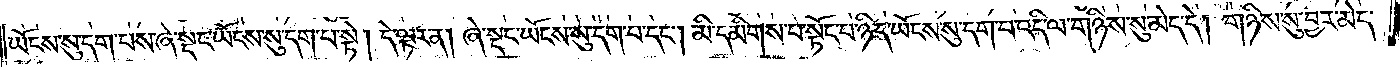ཡོངས་སུ་དག་པས་ཞེ་སྡང་ཡོངས་སུ་དག་པ་སྟེ། དེ་ལྟར་ན། ཞེ་སྡང་ཡོངས་སུ་དག་པ་དང༌། མི་དམིགས་པ་སྟོང་པ་ཉིད་ཡོངས་སུ་དག་པ་འདི་ལ་གཉིས་སུ་མེད་དེ། གཉིས་སུ་བྱར་མེད་
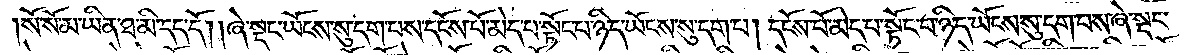སོ་སོ་མ་ཡིན་ཐ་མི་དད་དོ། །ཞེ་སྡང་ཡོངས་སུ་དག་པས་དངོས་པོ་མེད་པ་སྟོང་པ་ཉིད་ཡོངས་སུ་དག་པ། དངོས་པོ་མེད་པ་སྟོང་པ་ཉིད་ཡོངས་སུ་དག་པས་ཞེ་སྡང་
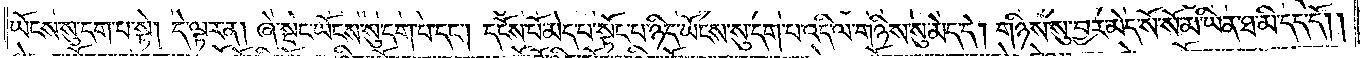ཡོངས་སུ་དག་པ་སྟེ། དེ་ལྟར་ན། ཞེ་སྡང་ཡོངས་སུ་དག་པ་དང༌། དངོས་པོ་མེད་པ་སྟོང་པ་ཉིད་ཡོངས་སུ་དག་པ་འདི་ལ་གཉིས་སུ་མེད་དེ། གཉིས་སུ་བྱར་མེད་སོ་སོ་མ་ཡིན་ཐ་མི་དད་དོ། །
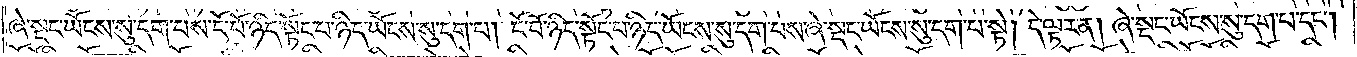ཞེ་སྡང་ཡོངས་སུ་དག་པས་ངོ་བོ་ཉིད་སྟོང་པ་ཉིད་ཡོངས་སུ་དག་པ། ངོ་བོ་ཉིད་སྟོང་པ་ཉིད་ཡོངས་སུ་དག་པས་ཞེ་སྡང་ཡོངས་སུ་དག་པ་སྟེ། དེ་ལྟར་ན། ཞེ་སྡང་ཡོངས་སུ་དག་པ་དང༌།
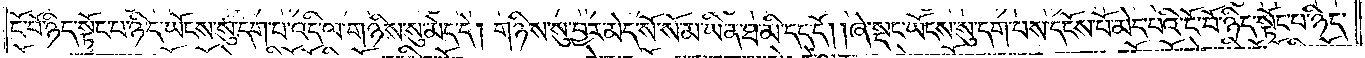ངོ་བོ་ཉིད་སྟོང་པ་ཉིད་ཡོངས་སུ་དག་པ་འདི་ལ་གཉིས་སུ་མེད་དེ། གཉིས་སུ་བྱར་མེད་སོ་སོ་མ་ཡིན་ཐ་མི་དད་དོ། །ཞེ་སྡང་ཡོངས་སུ་དག་པས་དངོས་པོ་མེད་པའི་ངོ་བོ་ཉིད་སྟོང་པ་ཉིད་
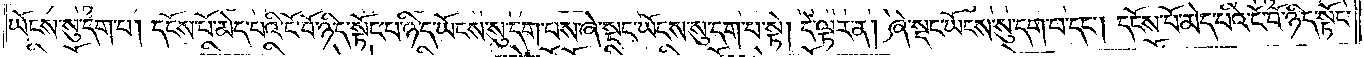ཡོངས་སུ་དག་པ། དངོས་པོ་མེད་པའི་ངོ་བོ་ཉིད་སྟོང་པ་ཉིད་ཡོངས་སུ་དག་པས་ཞེ་སྡང་ཡོངས་སུ་དག་པ་སྟེ། དེ་ལྟར་ན། ཞེ་སྡང་ཡོངས་སུ་དག་པ་དང༌། དངོས་པོ་མེད་པའི་ངོ་བོ་ཉིད་སྟོང་
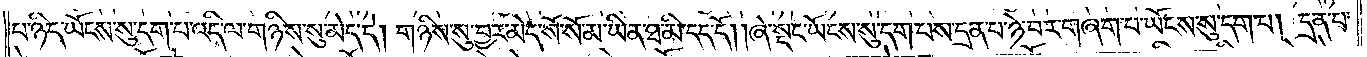པ་ཉིད་ཡོངས་སུ་དག་པ་འདི་ལ་གཉིས་སུ་མེད་དེ། གཉིས་སུ་བྱར་མེད་སོ་སོ་མ་ཡིན་ཐ་མི་དད་དོ། །ཞེ་སྡང་ཡོངས་སུ་དག་པས་དྲན་པ་ཉེ་བར་གཞག་པ་ཡོངས་སུ་དག་པ། དྲན་པ་
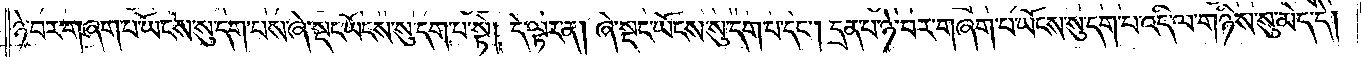ཉེ་བར་གཞག་པ་ཡོངས་སུ་དག་པས་ཞེ་སྡང་ཡོངས་སུ་དག་པ་སྟེ། དེ་ལྟར་ན། ཞེ་སྡང་ཡོངས་སུ་དག་པ་དང༌། དྲན་པ་ཉེ་བར་གཞག་པ་ཡོངས་སུ་དག་པ་འདི་ལ་གཉིས་སུ་མེད་དེ།
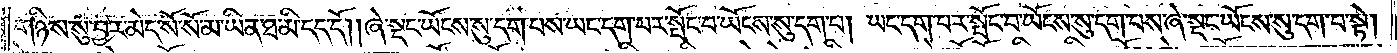གཉིས་སུ་བྱར་མེད་སོ་སོ་མ་ཡིན་ཐ་མི་དད་དོ། །ཞེ་སྡང་ཡོངས་སུ་དག་པས་ཡང་དག་པར་སྤོང་བ་ཡོངས་སུ་དག་པ། ཡང་དག་པར་སྤོང་བ་ཡོངས་སུ་དག་པས་ཞེ་སྡང་ཡོངས་སུ་དག་པ་སྟེ།
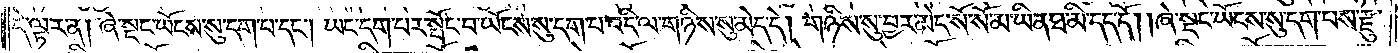དེ་ལྟར་ན། ཞེ་སྡང་ཡོངས་སུ་དག་པ་དང༌། ཡང་དག་པར་སྤོང་བ་ཡོངས་སུ་དག་པ་འདི་ལ་གཉིས་སུ་མེད་དེ། གཉིས་སུ་བྱར་མེད་སོ་སོ་མ་ཡིན་ཐ་མི་དད་དོ། །ཞེ་སྡང་ཡོངས་སུ་དག་པས་རྫུ་
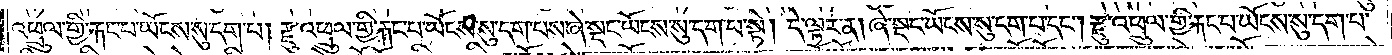འཕྲུལ་གྱི་རྐང་པ་ཡོངས་སུ་དག་པ། རྫུ་འཕྲུལ་གྱི་རྐང་པ་ཡོངས་སུ་དག་པས་ཞེ་སྡང་ཡོངས་སུ་དག་པ་སྟེ། དེ་ལྟར་ན། ཞེ་སྡང་ཡོངས་སུ་དག་པ་དང༌། རྫུ་འཕྲུལ་གྱི་རྐང་པ་ཡོངས་སུ་དག་པ་
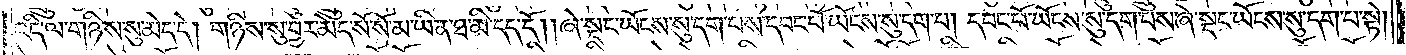འདི་ལ་གཉིས་སུ་མེད་དེ། གཉིས་སུ་བྱར་མེད་སོ་སོ་མ་ཡིན་ཐ་མི་དད་དོ། །ཞེ་སྡང་ཡོངས་སུ་དག་པས་དབང་པོ་ཡོངས་སུ་དག་པ། དབང་པོ་ཡོངས་སུ་དག་པས་ཞེ་སྡང་ཡོངས་སུ་དག་པ་སྟེ།
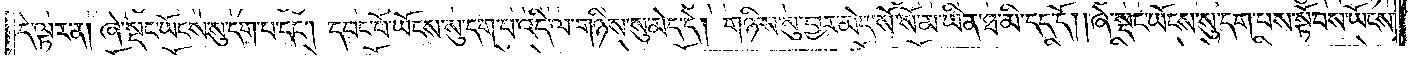དེ་ལྟར་ན། ཞེ་སྡང་ཡོངས་སུ་དག་པ་དང༌། དབང་པོ་ཡོངས་སུ་དག་པ་འདི་ལ་གཉིས་སུ་མེད་དེ། གཉིས་སུ་བྱར་མེད་སོ་སོ་མ་ཡིན་ཐ་མི་དད་དོ། །ཞེ་སྡང་ཡོངས་སུ་དག་པས་སྟོབས་ཡོངས་
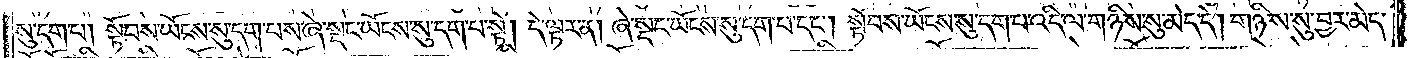སུ་དག་པ། སྟོབས་ཡོངས་སུ་དག་པས་ཞེ་སྡང་ཡོངས་སུ་དག་པ་སྟེ། དེ་ལྟར་ན། ཞེ་སྡང་ཡོངས་སུ་དག་པ་དང༌། སྟོབས་ཡོངས་སུ་དག་པ་འདི་ལ་གཉིས་སུ་མེད་དེ། གཉིས་སུ་བྱར་མེད་
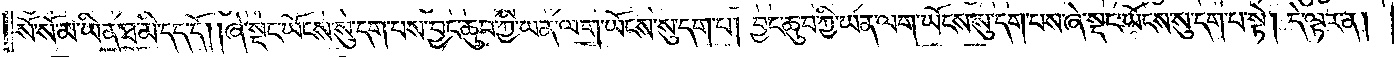སོ་སོ་མ་ཡིན་ཐ་མི་དད་དོ། །ཞེ་སྡང་ཡོངས་སུ་དག་པས་བྱང་ཆུབ་ཀྱི་ཡན་ལག་ཡོངས་སུ་དག་པ། བྱང་ཆུབ་ཀྱི་ཡན་ལག་ཡོངས་སུ་དག་པས་ཞེ་སྡང་ཡོངས་སུ་དག་པ་སྟེ། དེ་ལྟར་ན།
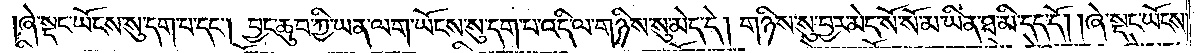ཞེ་སྡང་ཡོངས་སུ་དག་པ་དང༌། བྱང་ཆུབ་ཀྱི་ཡན་ལག་ཡོངས་སུ་དག་པ་འདི་ལ་གཉིས་སུ་མེད་དེ། གཉིས་སུ་བྱར་མེད་སོ་སོ་མ་ཡིན་ཐ་མི་དད་དོ། །ཞེ་སྡང་ཡོངས་
